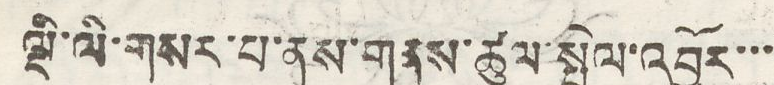ལྡི་ལི་གསར་པ་ནས་གནས་ཚུལ་སྤེལ་འབྱོར་་་
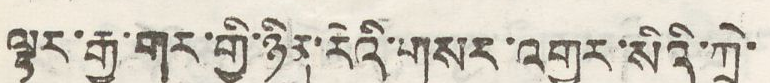ལྟར་རྒྱ་གར་གྱི་ཉིན་རེའི་གསར་འགྱུར་སིའི་ཀྲེ་
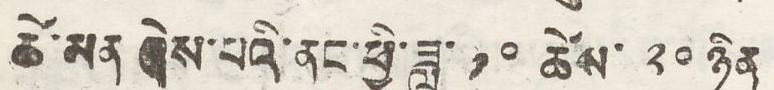ཚེ་མན ཞེས་པའི་ནང་ཕྱི་ཟླ་ ༡༠ ཚེས་ ༢༠ ཉིན
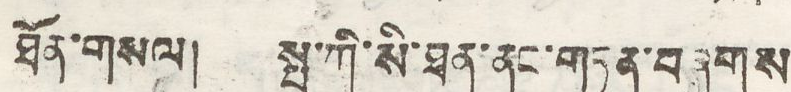ཐོན་གསལ། སྤ་ཀི་སི་ཐན་ནང་གཏན་བཞུགས
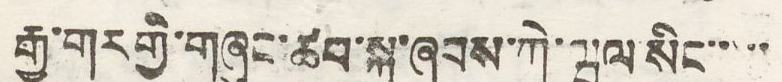རྒྱ་གར གྱི་གཞུང་ཚབ་སྐུ་ཞབས་ཀེ་ཝལ་སིང་་་་
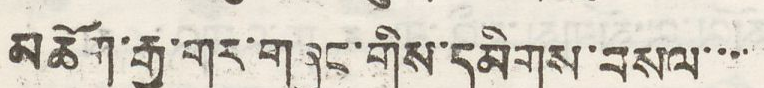མཆོག་རྒྱ་གར་གཞུང་གིས་དམིགས་བསལ་་་་
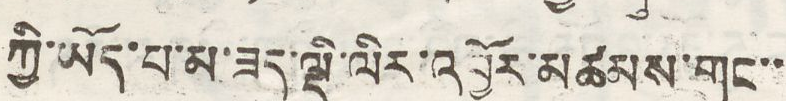ཀྱི་ཡོད་པ་མ་ཟད་ལྡི་ལིར་འབྱོར་མཚམས་གང་་
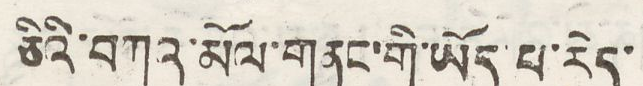ཅིའི་བཀའ་མོལ་གནང་གི་ཡོད་པ་རེད་
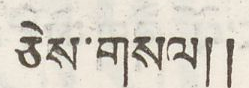ཅེས་གསལ།།
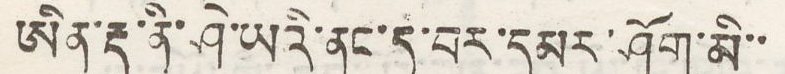ཨིན་རྡུ་ནི་ཤེ་ཡའི་ནང་ད་བར་དམར་ཤོག་མི་་
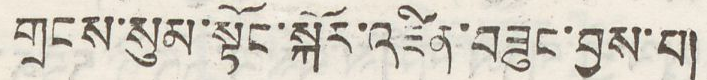གྲངས་སུམ་སྟོང་སྐོར་འཛིན་བཟུང་བྱས་པ།
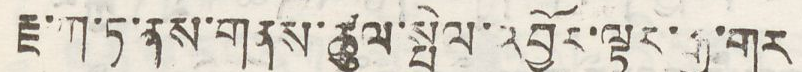རྫ་ཀ་ཏ་ནས་གནས་ཚུལ་སྤེལ་འབྱོར་ལྟར་རྒྱ་གར
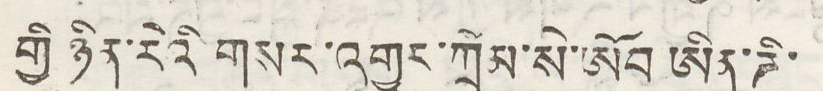གྱི ཉིན་རེའི གསར་འགྱུར་ཀྲེམ་སེ་ཨོབ ཨིན་ཌི་
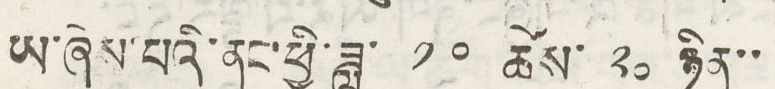ཡ་ཞེས་པའི་ནང་ཕྱི་ཟླ་ ༡༠ ཚེས་ ༢༠ ཉིན་་
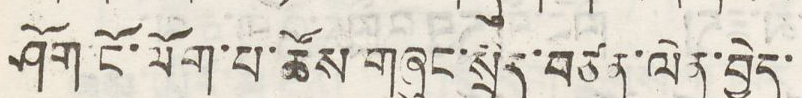ཤོག་ངོ་ལོག་པ་ཚོས་གཞུང་སྲིད་བཙན་ལེན་བྱེད་
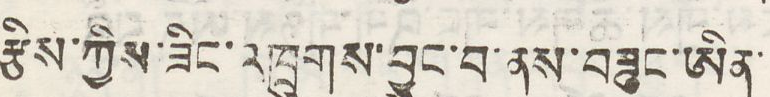རྩིས་ཀྱིས་ཟིང་འཁྲུགས་བྱུང་བ་ནས་བཟུང་ཨིན་
